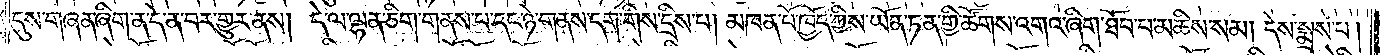དུས་གཞན་ཞིག་ན་དེ་ན་བར་གྱུར་ནས། དེ་ལ་ལྷན་ཅིག་གནས་པ་དང་ཉེ་གནས་དག་གིས་དྲིས་པ། མཁན་པོ་ཁྱོད་ཀྱིས་ཡོན་ཏན་གྱི་ཚོགས་འགའ་ཞིག་ཐོབ་པ་མཆིས་སམ། དེས་སྨྲས་པ།
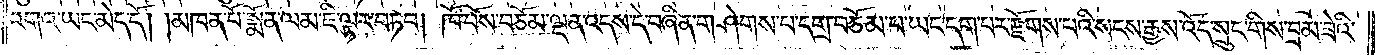འགའ་ཡང་མེད་དོ། །མཁན་པོ་སྨོན་ལམ་ཇི་ལྟར་བཏབ། ཁོ་བོས་བཅོམ་ལྡན་འདས་དེ་བཞིན་གཤེགས་པ་དགྲ་བཅོམ་པ་ཡང་དག་པར་རྫོགས་པའི་སངས་རྒྱས་འོད་སྲུང་གིས་བྲམ་ཟེའི་
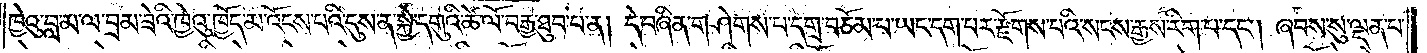ཁྱེའུ་བླ་མ་ལ་བྲམ་ཟེའི་ཁྱེའུ་ཁྱོད་མ་འོངས་པའི་དུས་ན་སྐྱེ་དགུའི་ཚེ་ལོ་བརྒྱ་ཐུབ་པ་ན། དེ་བཞིན་གཤེགས་པ་དགྲ་བཅོམ་པ་ཡང་དག་པར་རྫོགས་པའི་སངས་རྒྱས་རིག་པ་དང༌། ཞབས་སུ་ལྡན་པ་
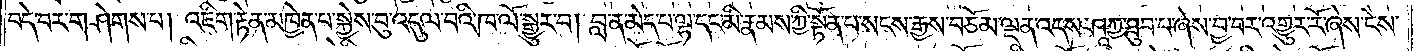བདེ་བར་གཤེགས་པ། འཇིག་རྟེན་མཁྱེན་པ་སྐྱེས་བུ་འདུལ་བའི་ཁ་ལོ་སྒྱུར་བ། བླ་ན་མེད་པ་ལྷ་དང་མི་རྣམས་ཀྱི་སྟོན་པ་སངས་རྒྱས་བཅོམ་ལྡན་འདས་ཤཱཀྱ་ཐུབ་པ་ཞེས་བྱ་བར་འགྱུར་རོ་ཞེས་ངེས་
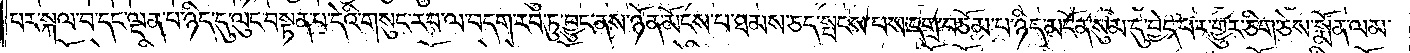པར་སྐལ་བ་དང་ལྡན་པ་ཉིད་དུ་ལུང་བསྟན་པ་དེའི་གསུང་རབ་ལ་བདག་རབ་ཏུ་བྱུང་ནས་ཉོན་མོངས་པ་ཐམས་ཅད་སྤངས་པས་དགྲ་བཅོམ་པ་ཉིད་མངོན་སུམ་དུ་བྱེད་པར་གྱུར་ཅིག་ཅེས་སྨོན་ལམ་
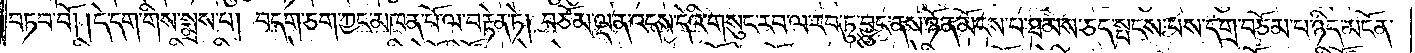བཏབ་བོ། །དེ་དག་གིས་སྨྲས་པ། བདག་ཅག་ཀྱང་མཁན་པོ་ལ་བརྟེན་ཏེ། བཅོམ་ལྡན་འདས་དེའི་གསུང་རབ་ལ་རབ་ཏུ་བྱུང་ནས་ཉོན་མོངས་པ་ཐམས་ཅད་སྤངས་པས་དགྲ་བཅོམ་པ་ཉིད་མངོན་
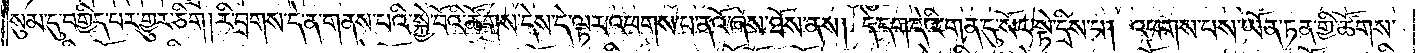སུམ་དུ་བགྱིད་པར་གྱུར་ཅིག །རི་བྲགས་དེ་ན་གནས་པའི་སྐྱེ་བོའི་ཚོགས་དེས་དེ་ལྟར་འཕགས་པ་ནའོ་ཞེས་ཐོས་ནས། དེ་དག་དེའི་གན་དུ་སོང་སྟེ་དྲིས་པ། འཕགས་པས་ཡོན་ཏན་གྱི་ཚོགས་
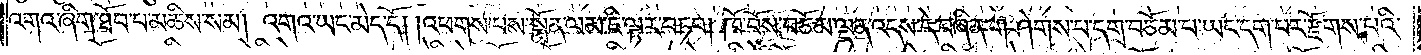འགའ་ཞིག་ཐོབ་པ་མཆིས་སམ། འགའ་ཡང་མེད་དོ། །འཕགས་པས་སྨོན་ལམ་ཇི་ལྟར་བཏབ། ཁོ་བོས་བཅོམ་ལྡན་འདས་དེ་བཞིན་གཤེགས་པ་དགྲ་བཅོམ་པ་ཡང་དག་པར་རྫོགས་པའི་
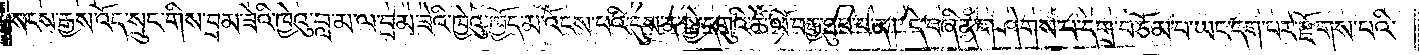སངས་རྒྱས་འོད་སྲུང་གིས་བྲམ་ཟེའི་ཁྱེའུ་བླ་མ་ལ་བྲམ་ཟེའི་ཁྱེའུ་ཁྱོད་མ་འོངས་པའི་དུས་ན་སྐྱེ་དགུའི་ཚེ་ལོ་བརྒྱ་ཐུབ་པ་ན། དེ་བཞིན་གཤེགས་པ་དགྲ་བཅོམ་པ་ཡང་དག་པར་རྫོགས་པའི་
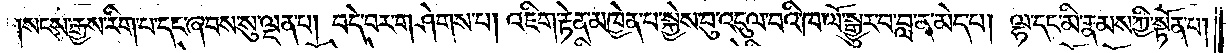སངས་རྒྱས་རིག་པ་དང་ཞབས་སུ་ལྡན་པ། བདེ་བར་གཤེགས་པ། འཇིག་རྟེན་མཁྱེན་པ་སྐྱེས་བུ་འདུལ་བའི་ཁ་ལོ་སྒྱུར་བ་བླ་ན་མེད་པ། ལྷ་དང་མི་རྣམས་ཀྱི་སྟོན་པ།
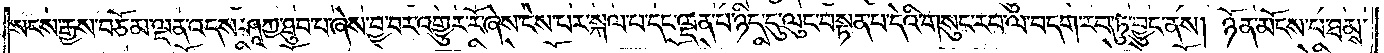སངས་རྒྱས་བཅོམ་ལྡན་འདས་ཤཱཀྱ་ཐུབ་པ་ཞེས་བྱ་བར་འགྱུར་རོ་ཞེས་ངེས་པར་སྐལ་པ་དང་ལྡན་པ་ཉིད་དུ་ལུང་བསྟན་པ་དེའི་གསུང་རབ་ལ་བདག་རབ་ཏུ་བྱུང་ནས། ཉོན་མོངས་པ་ཐམས་
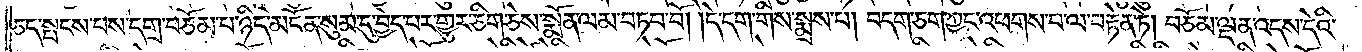ཅད་སྤངས་པས་དགྲ་བཅོམ་པ་ཉིད་མངོན་སུམ་དུ་བྱེད་པར་གྱུར་ཅིག་ཅེས་སྨོན་ལམ་བཏབ་བོ། །དེ་དག་གིས་སྨྲས་པ། བདག་ཅག་ཀྱང་འཕགས་པ་ལ་བརྟེན་ཏེ། བཅོམ་ལྡན་འདས་དེའི་
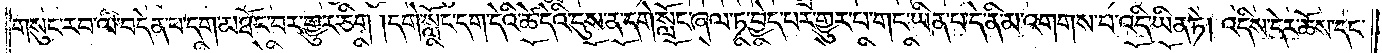གསུང་རབ་ལ་བདེན་པ་དག་མཐོང་བར་གྱུར་ཅིག །དགེ་སློང་དག་དེའི་ཚེ་དེའི་དུས་ན་དགེ་སློང་ཞལ་ཏ་བྱེད་པར་གྱུར་པ་གང་ཡིན་པ་དེ་ནི་མ་འགགས་པ་འདི་ཡིན་ཏེ། འདིས་དེར་ཆོས་དང་
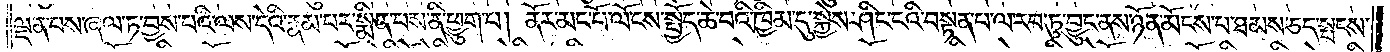ལྡན་པས་ཞལ་ཏ་བྱས་པའི་ལས་དེའི་རྣམ་པར་སྨིན་པས་ནི་ཕྱུག་པ། ནོར་མང་པོ་ལོངས་སྤྱོད་ཆེ་བའི་ཁྱིམ་དུ་སྐྱེས་ཤིང་ངའི་བསྟན་པ་ལ་རབ་ཏུ་བྱུང་ནས་ཉོན་མོངས་པ་ཐམས་ཅད་སྤངས་
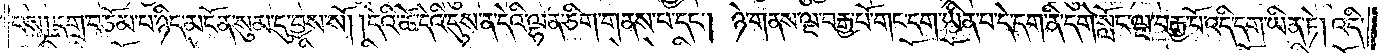པས། དགྲ་བཅོམ་པ་ཉིད་མངོན་སུམ་དུ་བྱས་སོ། །དེའི་ཚེ་དེའི་དུས་ན་དེའི་ལྷན་ཅིག་གནས་པ་དང༌། ཉེ་གནས་ལྔ་བརྒྱ་པོ་གང་དག་ཡིན་པ་དེ་དག་ནི་དགེ་སློང་ལྔ་བརྒྱ་པོ་འདི་དག་ཡིན་ཏེ། འདི་
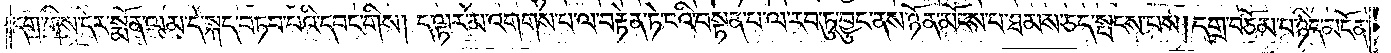དག་གིས་དེར་སྨོན་ལམ་དེ་སྐད་བཏབ་པའི་དབང་གིས། ད་ལྟར་མ་འགགས་པ་ལ་བརྟེན་ཏེ་ངའི་བསྟན་པ་ལ་རབ་ཏུ་བྱུང་ནས་ཉོན་མོངས་པ་ཐམས་ཅད་སྤངས་པས། དགྲ་བཅོམ་པ་ཉིད་མངོན་
